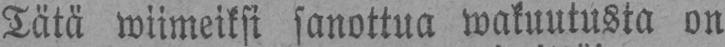Tätä wiimeiksi sanottua wakuutusta on
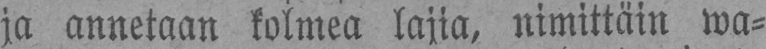ja annetaan kolmea lajia, nimittäin wa-
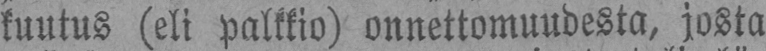kuutus (eli palkkio) onnettomuudesta, josta
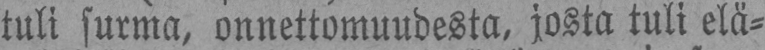tuli surma, onnettomuudesta, josta tuli elä-
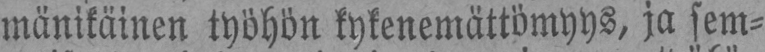mänikäinen työhön kykenemättömyys, ja sem-
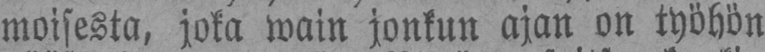moisesta, joka wain jonkun ajan on työhön
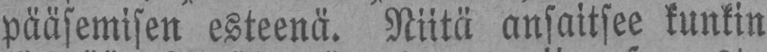pääsemisen esteenä. Niitä ansaitsee kunkin
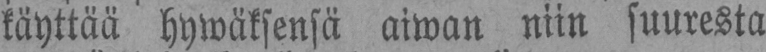käyttää hywäksensä aiwan niin suuresta
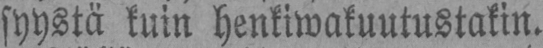syystä kuin henkiwakuutustakin.
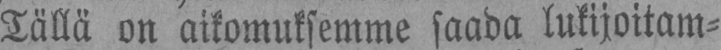Tällä on aikomuksemme saada lukijoitam-
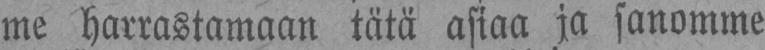me harrastamaan tätä asiaa ja sanomme
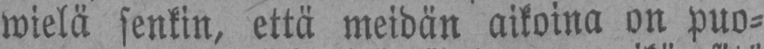wielä senkin, että meidän aikoina on puo-
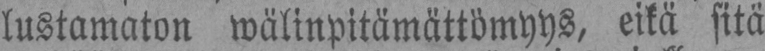lustamaton wälinpitämättömyys, eikä sitä
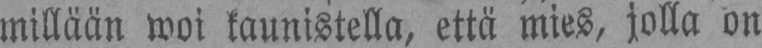millään woi kaunistella, että mies, jolla on
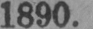1890.
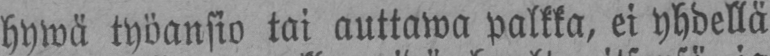hywä työansio tai auttawa palkka, ei yhdellä
